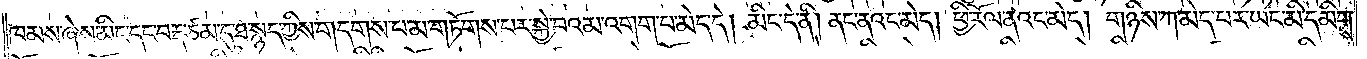ཁམས་ཞེས་མིང་དང་བརྡ་ཙམ་དུ་ཐ་སྙད་ཀྱིས་གདགས་པ་མ་གཏོགས་པར་སྐྱེ་བའམ་འགག་པ་མེད་དེ། མིང་དེ་ནི། ནང་ནའང་མེད། ཕྱི་རོལ་ནའང་མེད། གཉིས་ཀ་མེད་པར་ཡང་མི་དམིགས་
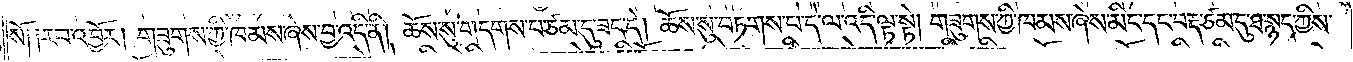སོ༑ ༑རབ་འབྱོར། གཟུགས་ཀྱི་ཁམས་ཞེས་བྱ་འདི་ནི། ཆོས་སུ་གདགས་པ་ཙམ་དུ་ཟད་དེ། ཆོས་སུ་བཏགས་པ་དེ་ལ་འདི་ལྟ་སྟེ། གཟུགས་ཀྱི་ཁམས་ཞེས་མིང་དང་བརྡ་ཙམ་དུ་ཐ་སྙད་ཀྱིས་
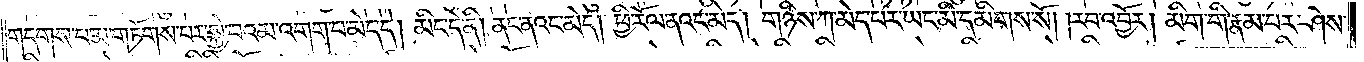གདགས་པ་མ་གཏོགས་པར་སྐྱེ་བའམ་འགག་པ་མེད་དེ། མིང་དེ་ནི། ནང་ནའང་མེད། ཕྱི་རོལ་ནའང་མེད། གཉིས་ཀ་མེད་པར་ཡང་མི་དམིགས་སོ། །རབ་འབྱོར། མིག་གི་རྣམ་པར་ཤེས་
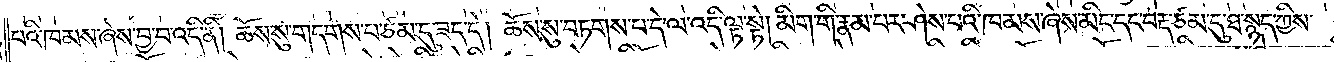པའི་ཁམས་ཞེས་བྱ་བ་འདི་ནི། ཆོས་སུ་གདགས་པ་ཙམ་དུ་ཟད་དེ། ཆོས་སུ་བཏགས་པ་དེ་ལ་འདི་ལྟ་སྟེ། མིག་གི་རྣམ་པར་ཤེས་པའི་ཁམས་ཞེས་མིང་དང་བརྡ་ཙམ་དུ་ཐ་སྙད་ཀྱིས་
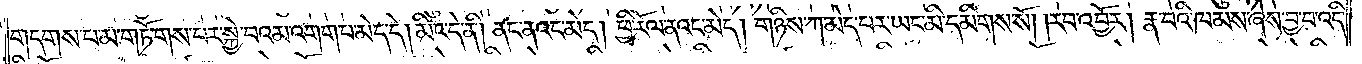གདགས་པ་མ་གཏོགས་པར་སྐྱེ་བའམ་འགག་པ་མེད་དེ། མིང་དེ་ནི། ནང་ནའང་མེད། ཕྱི་རོལ་ནའང་མེད། གཉིས་ཀ་མེད་པར་ཡང་མི་དམིགས་སོ། །རབ་འབྱོར། རྣ་བའི་ཁམས་ཞེས་བྱ་བ་འདི་
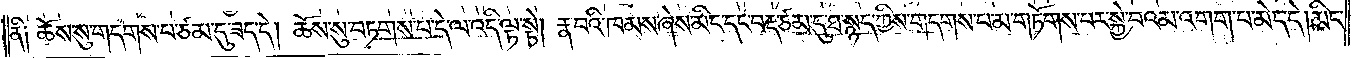ནི༑ ཆོས་སུ་གདགས་པ་ཙམ་དུ་ཟད་དེ། ཆོས་སུ་བཏགས་པ་དེ་ལ་འདི་ལྟ་སྟེ། རྣ་བའི་ཁམས་ཞེས་མིང་དང་བརྡ་ཙམ་དུ་ཐ་སྙད་ཀྱིས་གདགས་པ་མ་གཏོགས་པར་སྐྱེ་བའམ་འགག་པ་མེད་དེ། མིང་
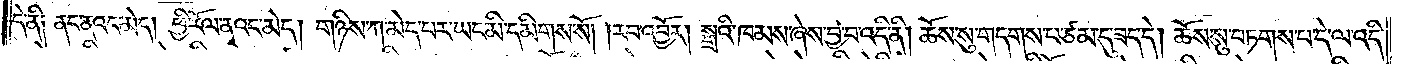དེ་ནི། ནང་ནའང་མེད། ཕྱི་རོལ་ནའང་མེད། གཉིས་ཀ་མེད་པར་ཡང་མི་དམིགས་སོ། །རབ་འབྱོར། སྒྲའི་ཁམས་ཞེས་བྱ་བ་འདི་ནི། ཆོས་སུ་གདགས་པ་ཙམ་དུ་ཟད་དེ། ཆོས་སུ་བཏགས་པ་དེ་ལ་འདི་
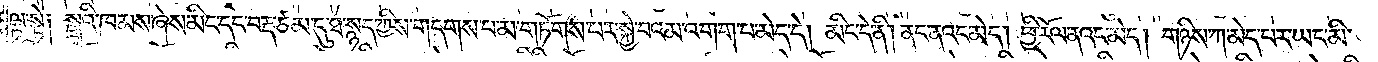ལྟ་སྟེ༑ སྒྲའི་ཁམས་ཞེས་མིང་དང་བརྡ་ཙམ་དུ་ཐ་སྙད་ཀྱིས་གདགས་པ་མ་གཏོགས་པར་སྐྱེ་བའམ་འགག་པ་མེད་དེ། མིང་དེ་ནི། ནང་ནའང་མེད། ཕྱི་རོལ་ནའང་མེད། གཉིས་ཀ་མེད་པར་ཡང་མི་
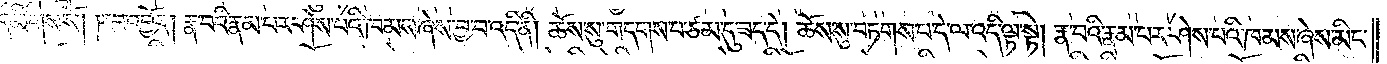དམིགས་སོ། །རབ་འབྱོར། རྣ་བའི་རྣམ་པར་ཤེས་པའི་ཁམས་ཞེས་བྱ་བ་འདི་ནི། ཆོས་སུ་གདགས་པ་ཙམ་དུ་ཟད་དེ། ཆོས་སུ་བཏགས་པ་དེ་ལ་འདི་ལྟ་སྟེ། རྣ་བའི་རྣམ་པར་ཤེས་པའི་ཁམས་ཞེས་མིང་
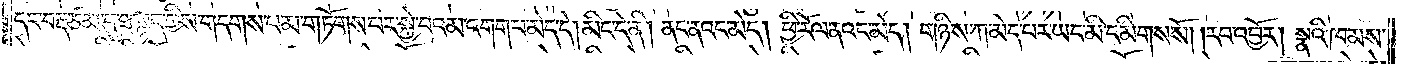དང་བརྡ་ཙམ་དུ་ཐ་སྙད་ཀྱིས་གདགས་པ་མ་གཏོགས་པར་སྐྱེ་བའམ་འགག་པ་མེད་དེ། མིང་དེ་ནི། ནང་ནའང་མེད། ཕྱི་རོལ་ནའང་མེད། གཉིས་ཀ་མེད་པར་ཡང་མི་དམིགས་སོ། །རབ་འབྱོར། སྣའི་ཁམས་
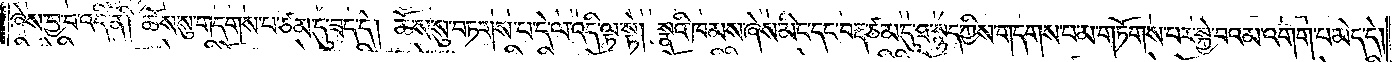ཞེས་བྱ་བ་འདི་ནི། ཆོས་སུ་གདགས་པ་ཙམ་དུ་ཟད་དེ། ཆོས་སུ་བཏགས་པ་དེ་ལ་འདི་ལྟ་སྟེ། སྣའི་ཁམས་ཞེས་མིང་དང་བརྡ་ཙམ་དུ་ཐ་སྙད་ཀྱིས་གདགས་པ་མ་གཏོགས་པར་སྐྱེ་བའམ་འགག་པ་མེད་དེ།
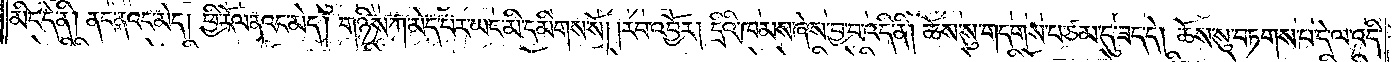མིང་དེ་ནི། ནང་ནའང་མེད། ཕྱི་རོལ་ནའང་མེད། གཉིས་ཀ་མེད་པར་ཡང་མི་དམིགས་སོ། །རབ་འབྱོར། དྲིའི་ཁམས་ཞེས་བྱ་བ་འདི་ནི། ཆོས་སུ་གདགས་པ་ཙམ་དུ་ཟད་དེ། ཆོས་སུ་བཏགས་པ་དེ་ལ་འདི་
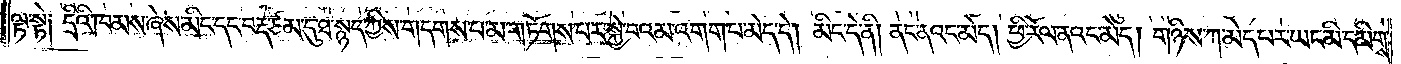ལྟ་སྟེ༑ དྲིའི་ཁམས་ཞེས་མིང་དང་བརྡ་ཙམ་དུ་ཐ་སྙད་ཀྱིས་གདགས་པ་མ་གཏོགས་པར་སྐྱེ་བའམ་འགག་པ་མེད་དེ། མིང་དེ་ནི། ནང་ནའང་མེད། ཕྱི་རོལ་ནའང་མེད། གཉིས་ཀ་མེད་པར་ཡང་མི་དམིགས་
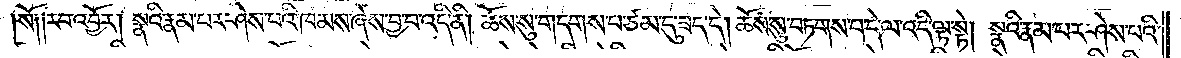སོ༑ ༑རབ་འབྱོར། སྣའི་རྣམ་པར་ཤེས་པའི་ཁམས་ཞེས་བྱ་བ་འདི་ནི། ཆོས་སུ་གདགས་པ་ཙམ་དུ་ཟད་དེ། ཆོས་སུ་བཏགས་པ་དེ་ལ་འདི་ལྟ་སྟེ། སྣའི་རྣམ་པར་ཤེས་པའི་
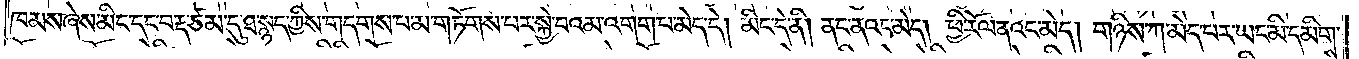ཁམས་ཞེས་མིང་དང་བརྡ་ཙམ་དུ་ཐ་སྙད་ཀྱིས་གདགས་པ་མ་གཏོགས་པར་སྐྱེ་བའམ་འགག་པ་མེད་དེ། མིང་དེ་ནི། ནང་ནའང་མེད། ཕྱི་རོལ་ནའང་མེད། གཉིས་ཀ་མེད་པར་ཡང་མི་དམིགས་
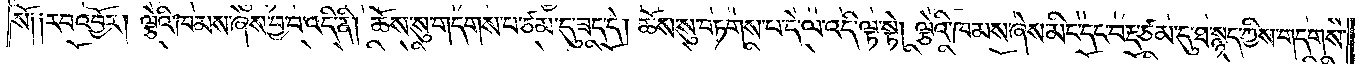སོ༑ ༑རབ་འབྱོར། ལྕེའི་ཁམས་ཞེས་བྱ་བ་འདི་ནི། ཆོས་སུ་གདགས་པ་ཙམ་དུ་ཟད་དེ། ཆོས་སུ་བཏགས་པ་དེ་ལ་འདི་ལྟ་སྟེ། ལྕེའི་ཁམས་ཞེས་མིང་དང་བརྡ་ཙམ་དུ་ཐ་སྙད་ཀྱིས་གདགས་
